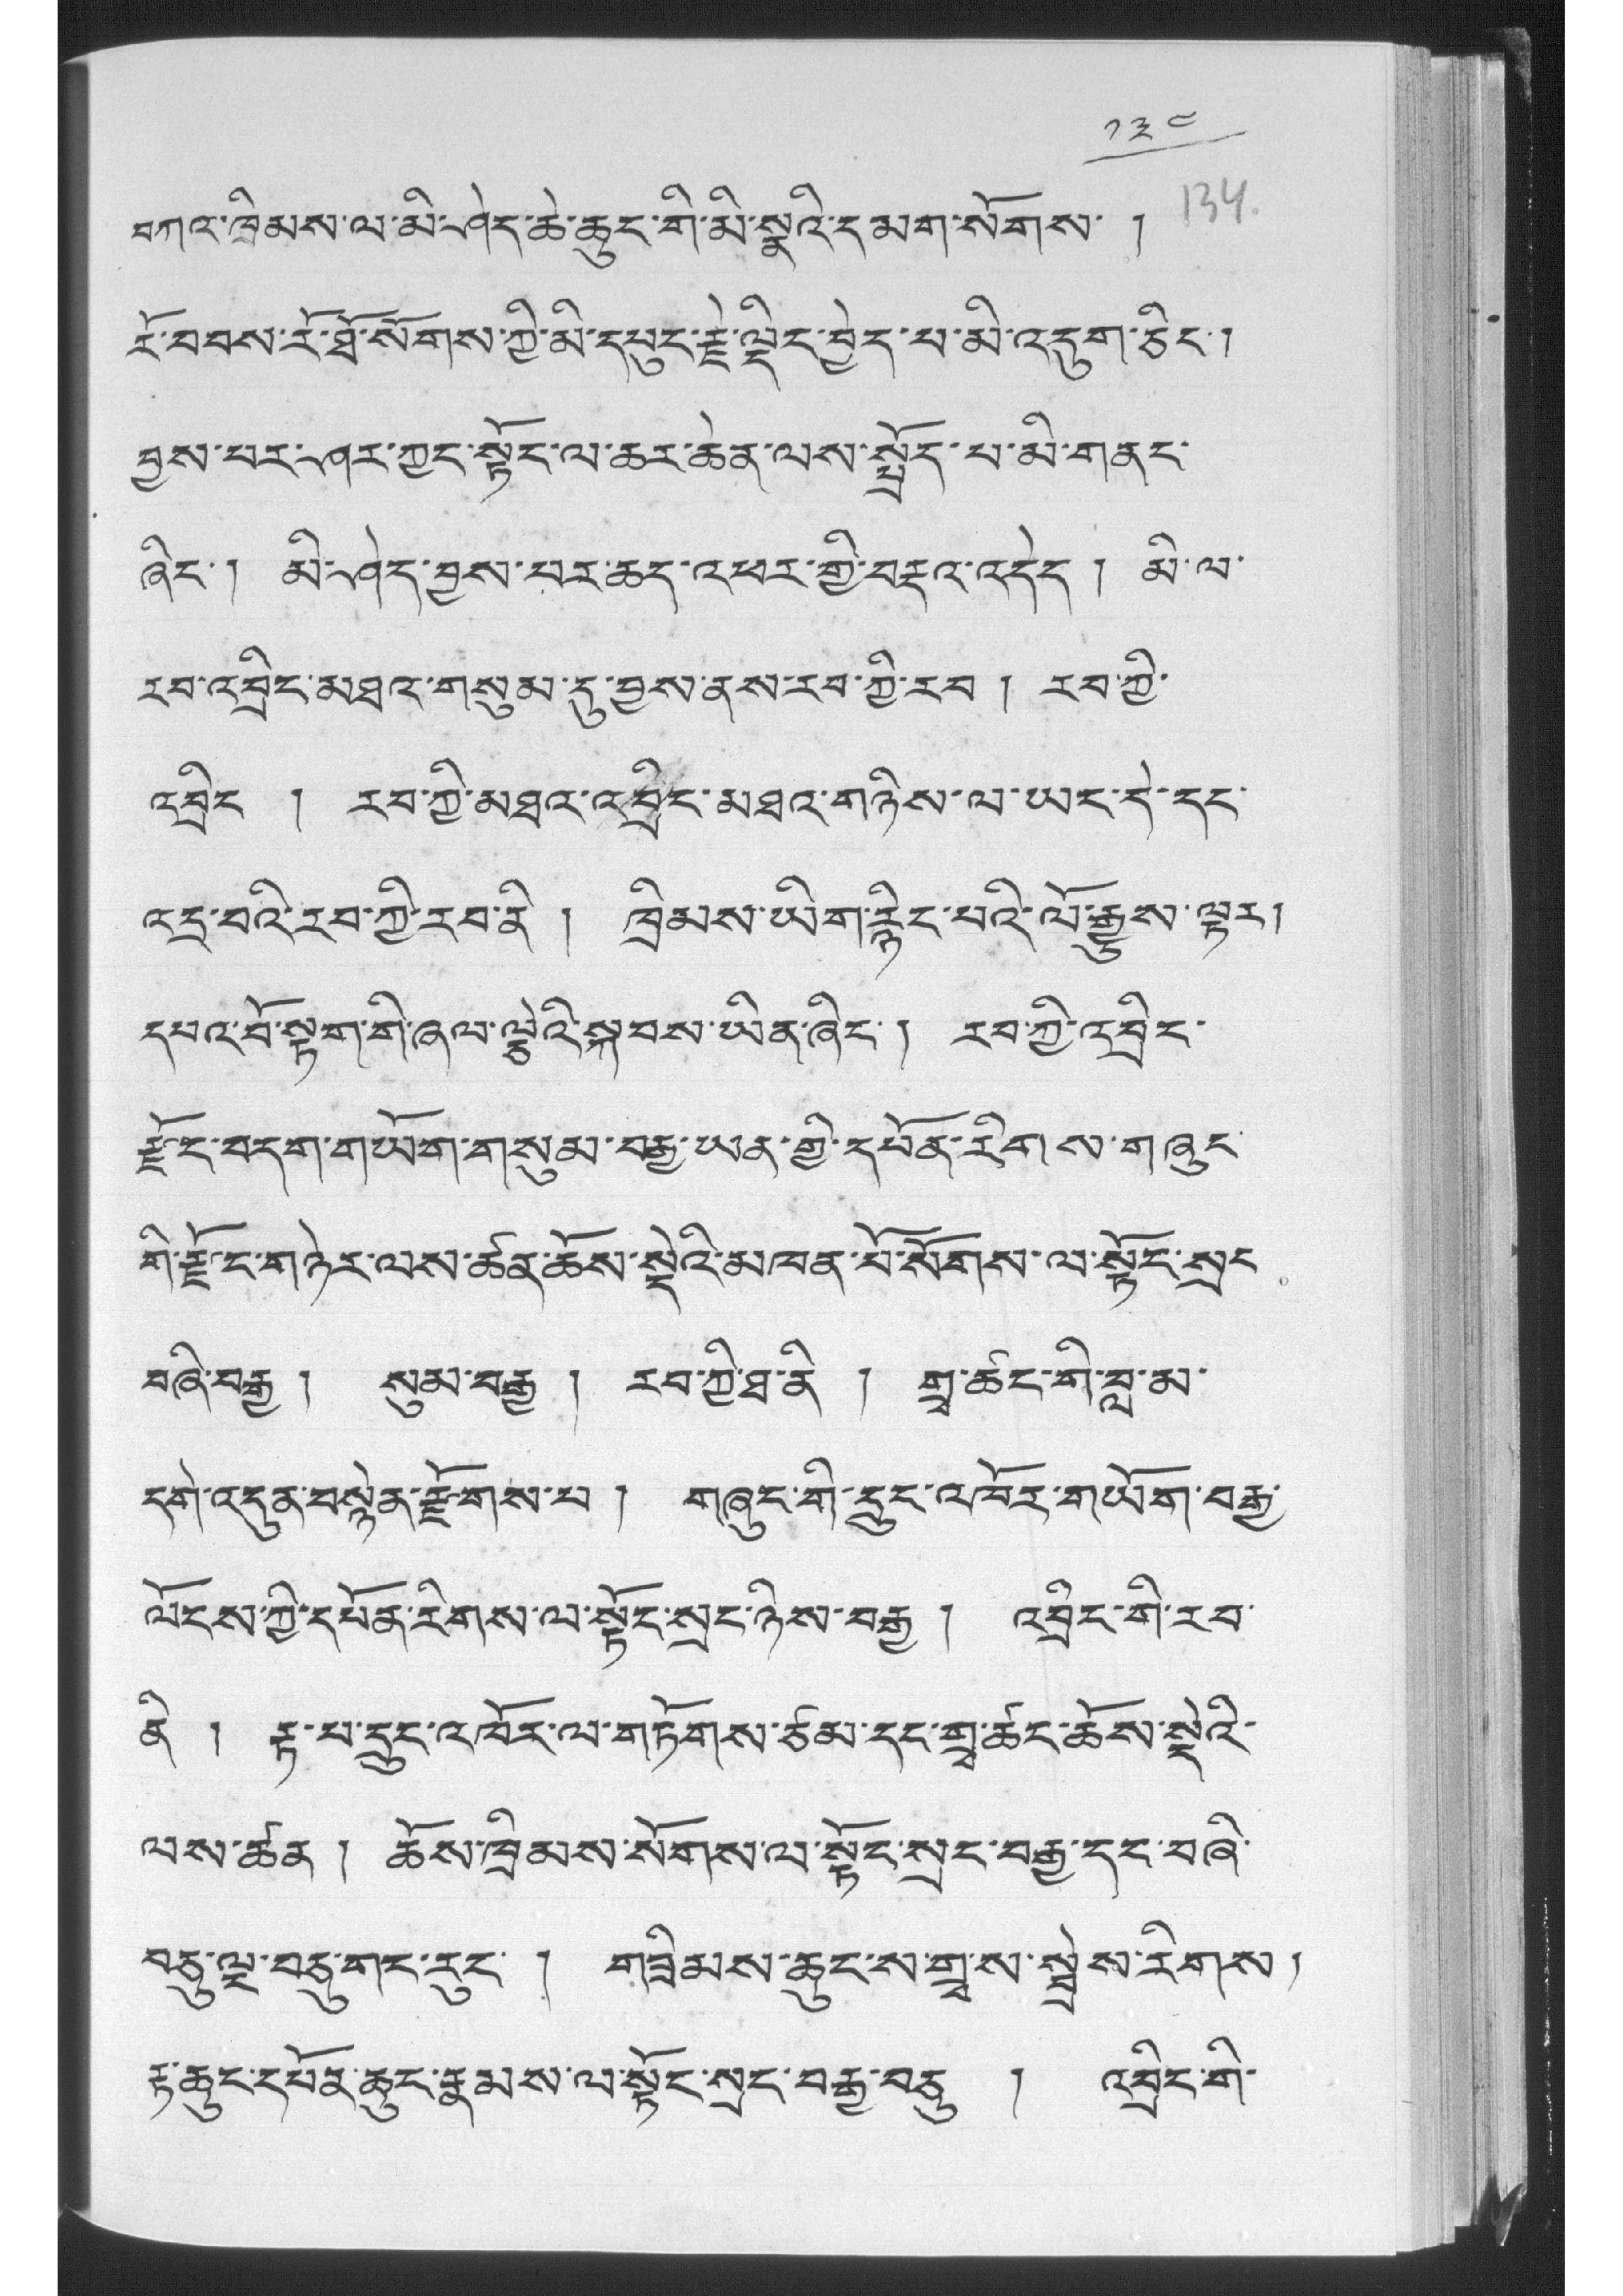༡༣༤
བཀའ་ཁྲིམས་ལ་མི་ཤེད་ཆེ་ཆུང་གི་མི་སྣའི་དམག་སོགས་ །
རོ་བབས་རོ་ཐོ་སོགས་ཀྱི་མི་དཔུང་རྗེ་ལྡིང་བྱེད་པ་མི་འདུག་ཅིང་།
བྱས་པར་ཤར་ཀྱང་སྟོང་ལ་ཆར་ཆེན་ལས་སྤྲོད་པ་མི་གནང་
ཞིང་། མི་ཤེད་བྱས་པར་ཆད་འཕར་གྱི་བརྡའ་འདེད ། མི་ལ་
རབ་འབྲིང་མཐའ་གསུམ་དུ་བྱས་ནས་རབ་ཀྱི་རབ ། རབ་ཀྱི་
འབྲིང ། རབ་ཀྱི་མཐའ་འབྲིང་མཐའ་གཉིས་ལ་ཡང་དེ་དང་
འདྲ་བའི་རབ་ཀྱི་རབ་ནི ། ཁྲིམས་ཡིག་རྙིང་པའི་ལོ་རྒྱུས་ལྟར།
དཔའ་བོ་སྟག་གི་ཞལ་ལྕེའི་སྐབས་ཡིན་ཞིང་། རབ་ཀྱི་འབྲིང་
རྫོང་བདག་གཡོག་གསུམ་བརྒྱ་ཡིན་གྱི་དཔོན་རིགས་གཞུང་
གི་རྫོང་གཉེར་ལས་ཚན་ཆོས་སྡེའི་མཁན་པོ་སོགས་ལ་སྟོང་སྲང་
བཞི་བརྒྱ ། སུམ་བརྒྱ ། རབ་ཀྱི་ཐ་ནི ། གྲྭ་ཚང་གི་བླ་མ་
དགེ་འདུན་བསྙེན་རྫོགས་པ ། གཞུང་གི་དྲུང་འཁོར་གཡོག་བརྒྱ་
ལོངས་ཀྱི་དཔོན་རིགས་ལ་སྟོང་སྲང་ཉིས་བརྒྱ ། འབྲིང་གི་རབ་
ནི ། རྟ་པ་དྲུང་འཁོར་ལ་གཏོགས་ཙམ་དང་གྲྭ་ཚང་ཆོས་སྡེའི་
ལས་ཚན ། ཆོས་ཁྲིམས་སོགས་ལ་སྟོང་སྲང་བརྒྱ་དང་བཞི་
བཅུ་ལྔ་བཅུ་གང་རུང་ ། གཟིམས་ཆུང་ས་གྲྭ་ས་སྦྲེས་རིགས།
རྟ་ཆུང་དཔོན་ཆུང་རྣམས་ལ་སྟོང་སྲང་བརྒྱ་བཅུ ། འབྲིང་གི་
